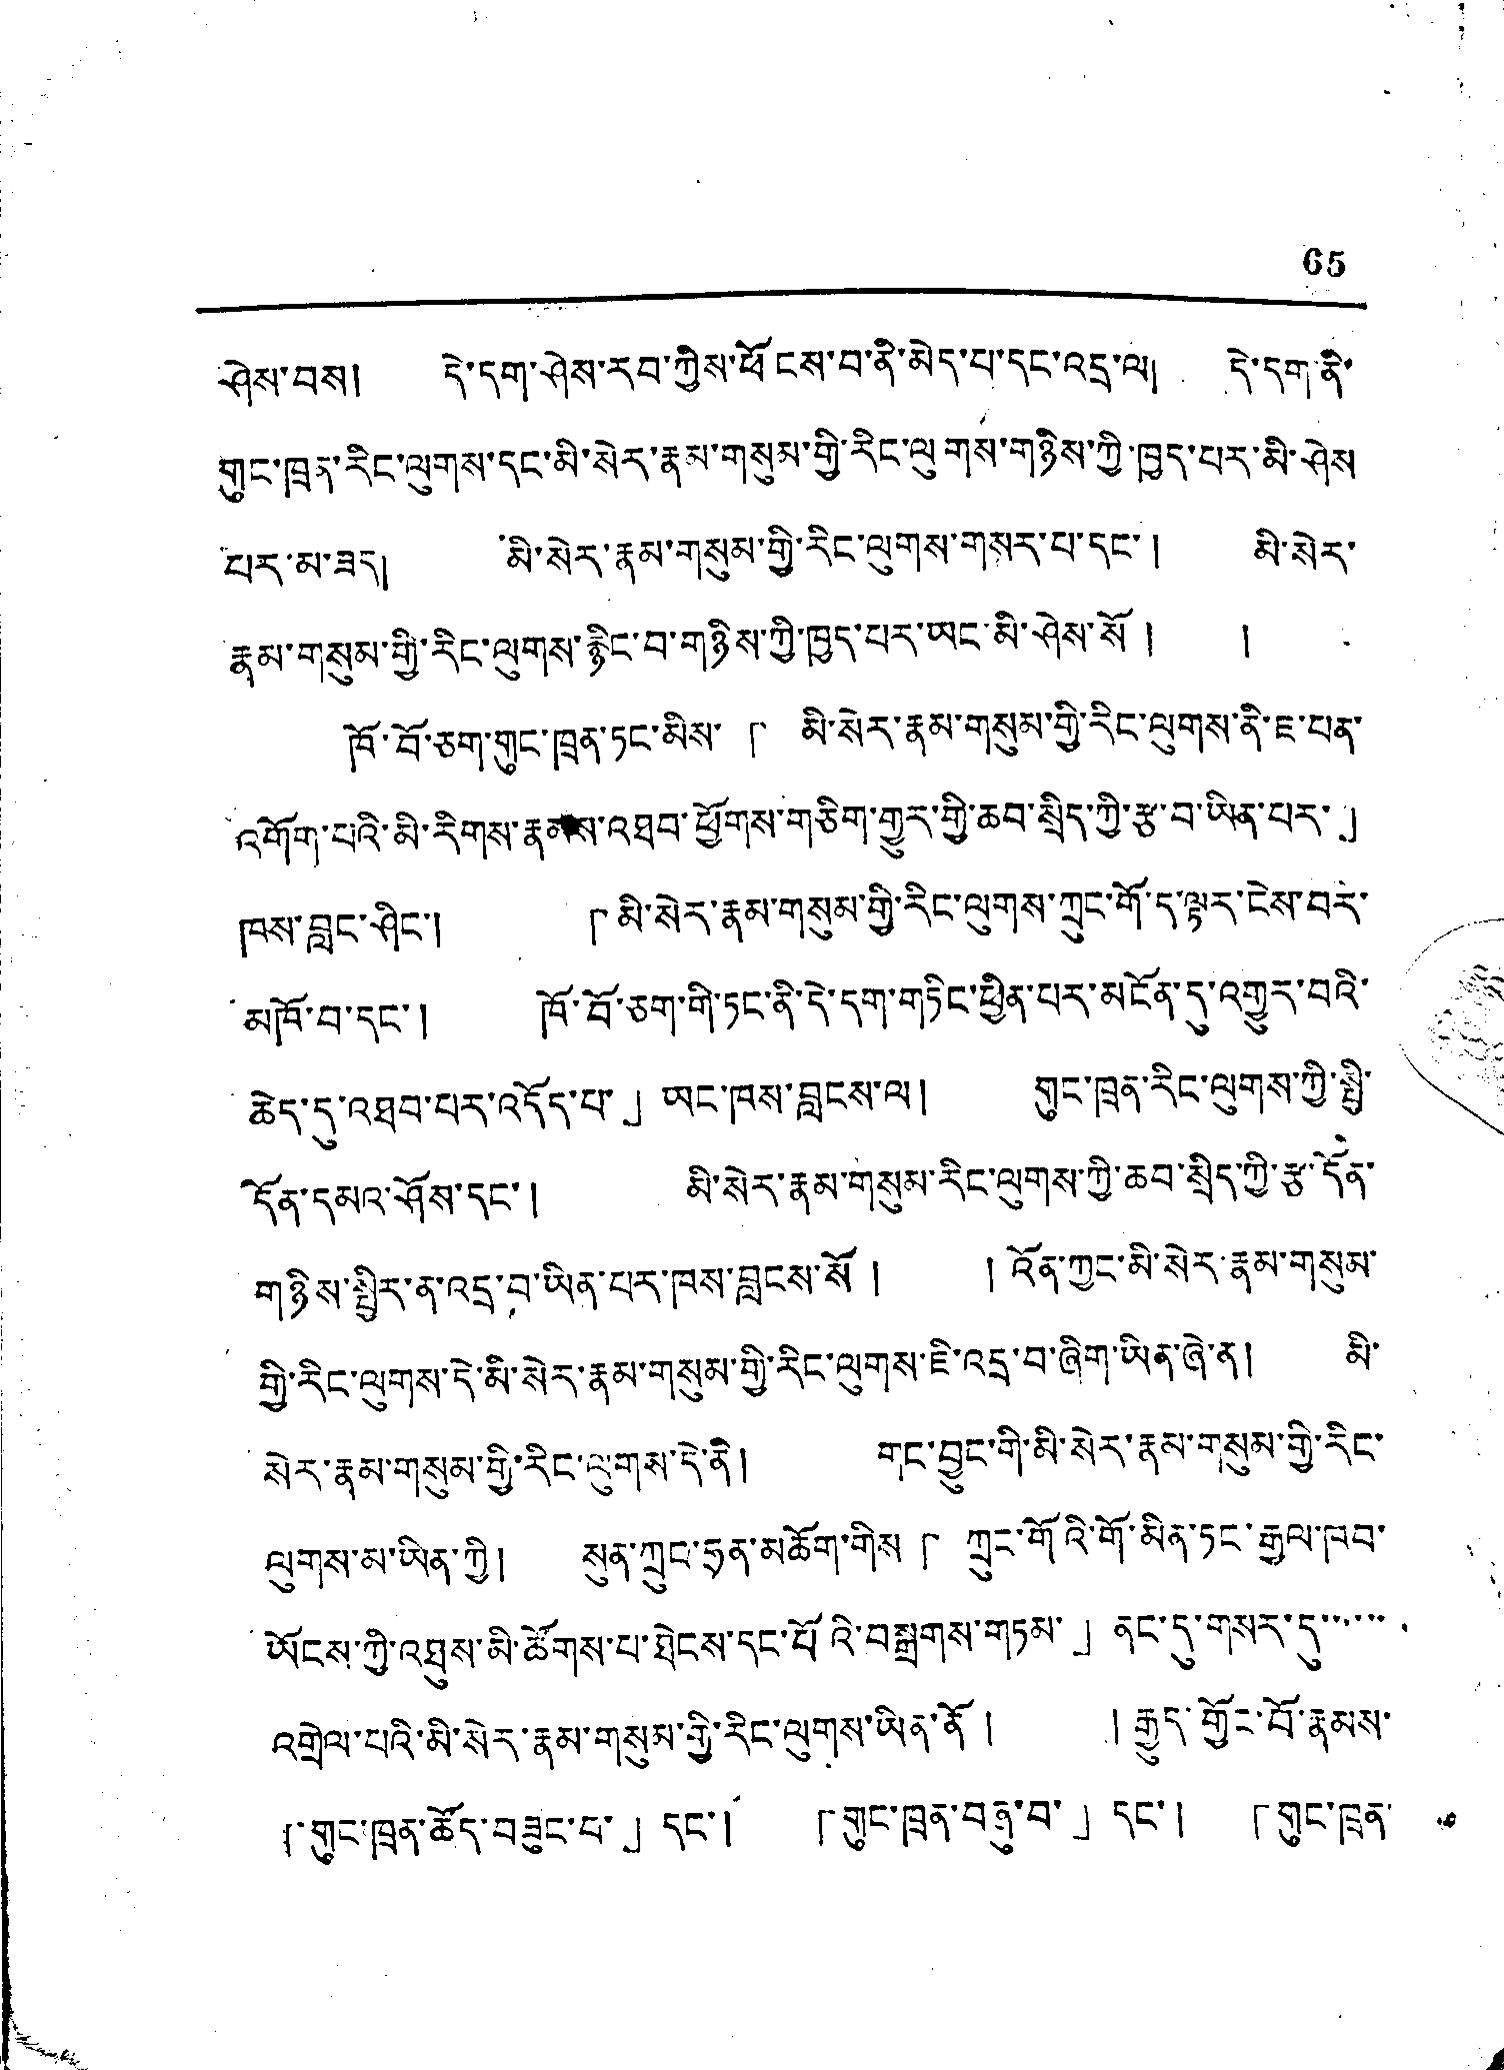65
ཤེས་བས། དེ་དག་ཤེས་རབ་ཀྱིས་ཕོངས་བ་ནི་མེད་པ་དང་འདྲ་ལ། དེ་དག་ནི
གུང་ཁྲན་རིང་ལུགས་དང་མི་སེར་རྣམ་གསུམ་གྱི་རིང་ལུགས་གཉིས་ཀྱི་ཁྱད་པར་མི་ཤེས་
པར་མ་ཟད། མི་སེར་རྣམ་གསུམ་གྱི་རིང་ལུགས་གསར་པ་དང་། མི་སེར་
རྣམ་གསུམ་གྱི་རིང་ལུགས་རྙིང་བ་གཉིས་ཀྱི་ཁྱད་པར་ཡང་མི་ཤེས་སོ ། །
ཁོ་བོ་ཅག་གུང་ཁྲན་ཏང་མིས་「 མི་སེར་རྣམ་གསུམ་གྱི་རིང་ལུགས་ནི་ཇ་པན་
འགོག་པའི་མི་རིགས་རྣམས་འཐབ་ཕྱོགས་གཅིག་གྱུར་གྱི་ཆབ་སྲིད་ཀྱི་རྩ་བ་ཡིན་པར་」
ཁས་བླང་ཤིང་། 「མི་སེར་རྣམ་གསུམ་གྱི་རིང་ལུགས་ཀྲུང་གོ་ད་ལྟར་ངེས་བར་
མཁོ་བ་དང་། ཁོ་བོ་ཅག་གི་ཏང་ནི་དེ་དག་གཏིང་ཕྱིན་པར་མངོན་དུ་འགྱུར་བའི་
ཆེད་དུ་འཐབ་པར་འདོད་པ་」ཡང་ཁས་བླངས་ལ། གུང་ཁྲན་རིང་ལུགས་ཀྱི་སྤྱི་
དོན་དམའ་ཤོས་དང་། མི་སེར་རྣམ་གསུམ་རིང་ལུགས་ཀྱི་ཆབ་སྲིད་ཀྱི་རྩ་དོན་
གཉིས་སྤྱིར་ན་འདྲ་བ་ཡིན་པར་ཁས་བླངས་སོ ། །འོན་ཀྱང་མི་སེར་རྣམ་གསུམ་
གྱི་རིང་ལུགས་དེ་མི་སེར་རྣམ་གསུམ་གྱི་རིང་ལུགས་ཇི་འདྲ་བ་ཞིག་ཡིན་ཞེ་ན། མི་
སེར་རྣམ་གསུམ་གྱི་རིང་ལུགས་དེ་ནི། གང་བྱུང་གི་མི་སེར་རྣམ་གསུམ་གྱི་རིང་
ལུགས་མ་ཡིན་ཀྱི། སུན་ཀྲུང་ཧྲན་མཆོག་གིས「ཀྲུང་གོའི་གོ་མིན་ཏང་རྒྱལ་ཁབ་
ཡོངས་ཀྱི་འཐུས་མི་ཚོགས་པ་ཐེངས་དང་པོའི་བསྒྲགས་གཏམ་」ནང་དུ་གསར་དུ་་་་་་
འགྲེལ་པའི་མི་སེར་རྣམ་གསུམ་གྱི་རིང་ལུགས་ཡིན་ནོ ། །རྒྱུད་གྱོང་བོ་རྣམས་
「གུང་ཁྲན་ཚོད་བཟུང་པ་」དང་། 「གུང་ཁྲན་བཞུ་བ་」དང་། 「གུང་ཁྲན་
